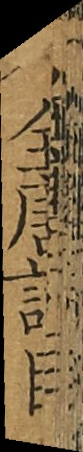全唐詩目
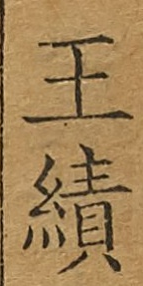王績
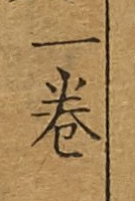一卷
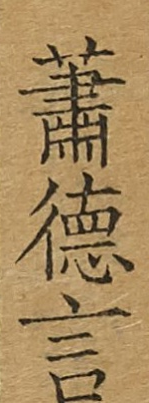蕭德言
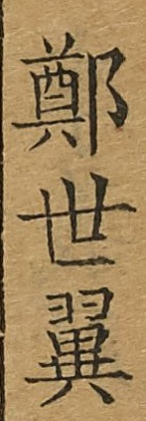鄭世翼
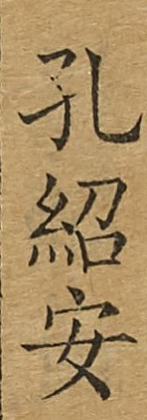孔紹安
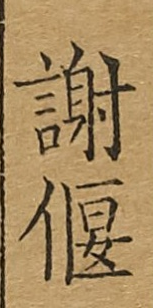謝偃
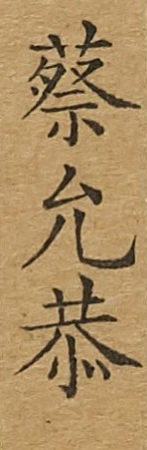蔡允恭
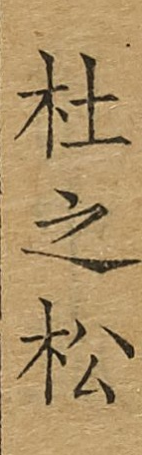杜之松
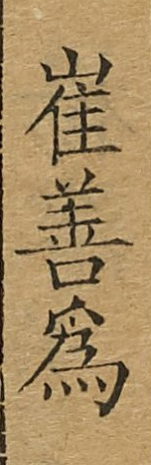崔善爲
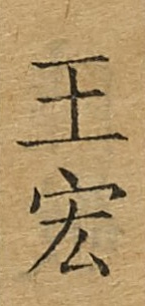王宏
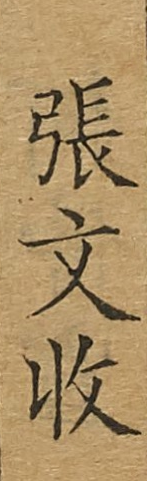張文收
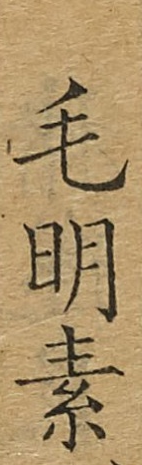毛明素
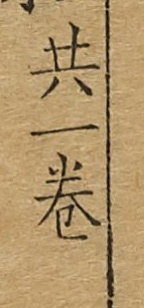共一卷
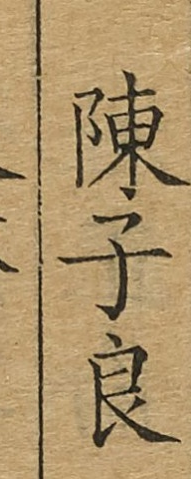陳子良
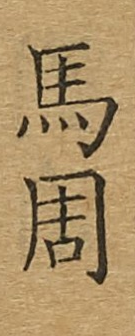馬周
